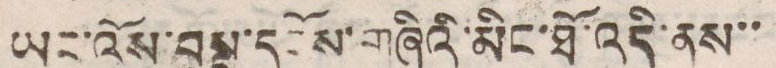ཡང་འོས་བསྡུ་དངོས་གཞིའི་མིང་ཐོ་འདི་ནས་་
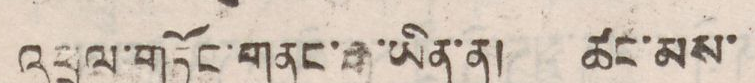འཕྲལ་གཏོང་གནང་རྒྱུ་ཡིན་ན། ཚང་མས་
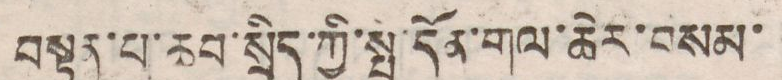བསྟན་པ་ཆབ་སྲིད་ཀྱི་སྤྱི་དོན་གལ་ཆེར་བསམ་
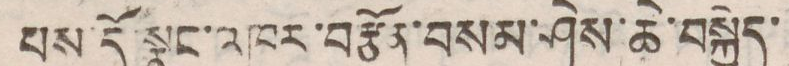པས་དོ་སྣང་འཁུར་བརྩོན་བསམ་ཤེས་ཆེ་བསྐྱེད་
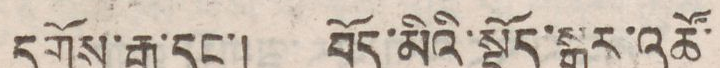དགོས་རྒྱུ་དང་། བོད་མིའི་སྡོད་སྒར་འཚོ་
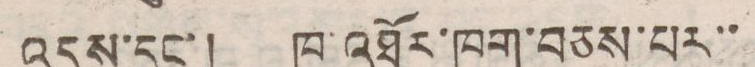འདུས་དང་། ཁ་འཐོར་ཁག་བཅས་པར་་
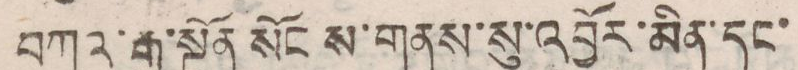བཀའ་རྒྱ་སྔོན སོང་ས་གནས་སུ་འབྱོར་མིན་དང་
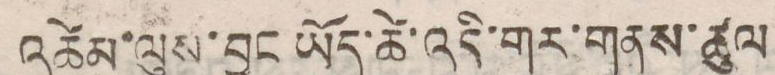འཚེམ་ལུས་བྱུང ཡོད་ཚེ་འདི་གར་གནས་ཚུལ
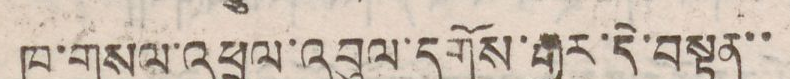ཁ་གསལ་འཕྲལ་འབུལ་དགོས་རྒྱུར་དེ་བསྟུན་་
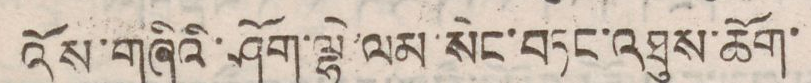འོས་གཞིའི་ཤོག་ལྷེ་ལམ་སེང་བཏང་འཐུས་ཆོག་
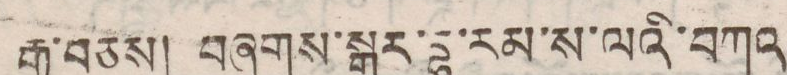རྒྱུ་བཅས། བཞུགས་སྒར་དྷ་རམ་ས་ལའི་བཀའ
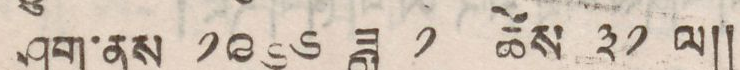ཤག་ནས ༡༩༦༦ ཟླ ༡ ཚེས ༣༡ ལ།།
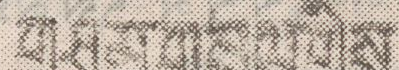གཤམ་གསལ་གྱིས་
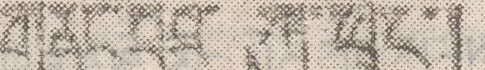གནང་བའི་ཀ་ཕྲེང་།
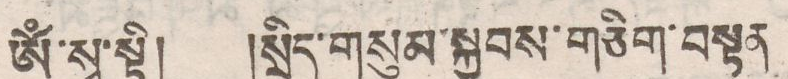ཨོཾ་སྭ་སྟི། །སྲིད་གསུམ་སྐྱབས་གཅིག་བསྟན་
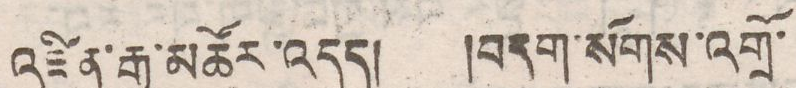འཛིན་རྒྱ་མཚོར་འདུད། །བདག་སོགས་འགྲོ་
